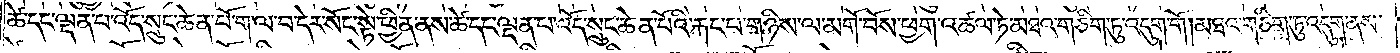ཚེ་དང་ལྡན་པ་འོད་སྲུང་ཆེན་པོ་ག་ལ་བ་དེར་སོང་སྟེ་ཕྱིན་ནས་ཚེ་དང་ལྡན་པ་འོད་སྲུང་ཆེན་པོའི་རྐང་པ་གཉིས་ལ་མགོ་བོ་ཕྱག་འཚལ་ཏེ་མཐའ་གཅིག་ཏུ་འདུག་གོ།མཐའ་གཅིག་ཏུ་འདུག་ནས་
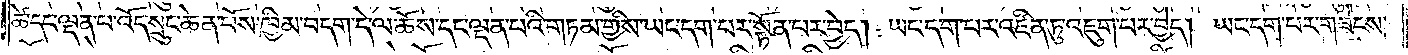ཚེ་དང་ལྡན་པ་འོད་སྲུང་ཆེན་པོས་ཁྱིམ་བདག་དེ་ལ་ཆོས་དང་ལྡན་པའི་གཏམ་གྱིས་ཡང་དག་པར་སྟོན་པར་བྱེད། ཡང་དག་པར་འཛིན་ཏུ་འཇུག་པར་བྱེད། ཡང་དག་པར་གཟེངས་
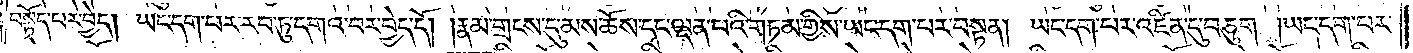བསྟོད་པར་བྱེད། ཡང་དག་པར་རབ་ཏུ་དགའ་བར་བྱེད་དོ། །རྣམ་གྲངས་དུ་མས་ཆོས་དང་ལྡན་པའི་གཏམ་གྱིས་ཡང་དག་པར་བསྟན། ཡང་དག་པར་འཛིན་དུ་བཅུག །ཡང་དག་པར་
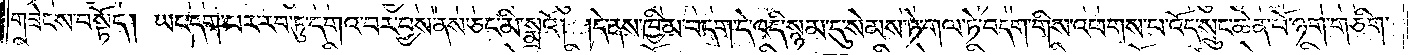གཟེངས་བསྟོད། ཡང་དག་པར་རབ་ཏུ་དགའ་བར་བྱས་ནས་ཅང་མི་སྨྲའོ། །དེ་ནས་ཁྱིམ་བདག་དེ་འདི་སྙམ་དུ་སེམས་ཏེ་གལ་ཏེ་བདག་གིས་འཕགས་པ་འོད་སྲུང་ཆེན་པོ་ཉག་གཅིག་
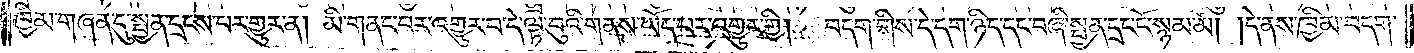ཁྱིམ་གཞན་དུ་སྤྱན་དྲངས་པར་གྱུར་ན། མི་གནང་བར་འགྱུར་བ་དེ་ལྟ་བུའི་གནས་ཡོད་པར་འགྱུར་གྱི། བདག་གིས་དེ་དག་ཉིད་དང་བཞི་སྤྱན་དྲངས་ངོ་སྙམ་མོ། །དེ་ནས་ཁྱིམ་བདག་
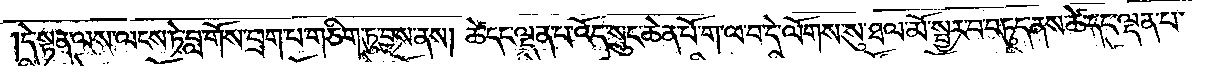དེ་སྟན་ལས་ལངས་ཏེ་བླ་གོས་ཕྲག་པ་གཅིག་ཏུ་བྱས་ནས། ཚེ་དང་ལྡན་པ་འོད་སྲུང་ཆེན་པོ་ག་ལ་བ་དེ་ལོགས་སུ་ཐལ་མོ་སྦྱར་བ་བཏུད་ནས་ཚེ་དང་ལྡན་པ་
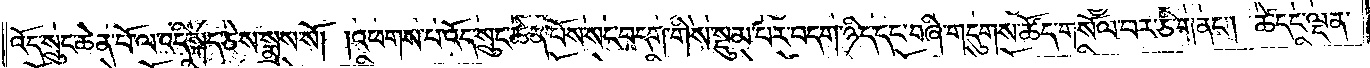འོད་སྲུང་ཆེན་པོ་ལ་འདི་སྐད་ཅེས་སྨྲས་སོ། །འཕགས་པ་འོད་སྲུང་ཆེན་པོས་སང་བདག་གིས་སྡུམ་པར་བདག་ཉིད་དང་བཞི་གདུགས་ཚོད་གསོལ་བར་ཅི་གནང༌། ཚེ་དང་ལྡན་
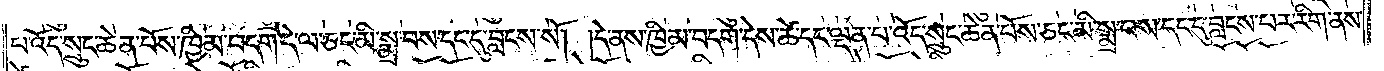པ་འོད་སྲུང་ཆེན་པོས་ཁྱིམ་བདག་དེ་ལ་ཅང་མི་སྨྲ་བས་དང་དུ་བླངས་སོ། །དེ་ནས་ཁྱིམ་བདག་དེས་ཚེ་དང་ལྡན་པ་འོད་སྲུང་ཆེན་པོས་ཅང་མི་སྨྲ་བས་དང་དུ་བླངས་པར་རིག་ནས་
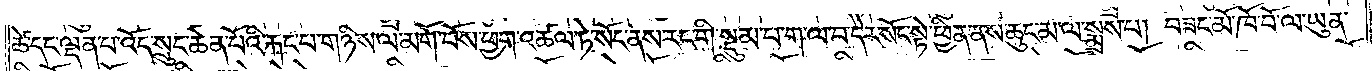ཚེ་དང་ལྡན་པ་འོད་སྲུང་ཆེན་པོའི་རྐང་པ་གཉིས་ལ་མགོ་བོས་ཕྱག་འཚལ་ཏེ་སོང་ནས་རང་གི་སྡུམ་པ་ག་ལ་བ་དེར་སོང་སྟེ་ཕྱིན་ནས་ཆུང་མ་ལ་སྨྲས་པ། བཟང་མོ་ཁོ་བོ་ལ་ཡུན་
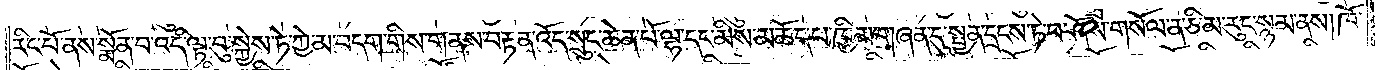རིང་པོ་ནས་སྨོན་པ་འདི་ལྟ་བུ་སྐྱེས་ཏེ་ཀྱེ་མ་བདག་གིས་གནས་བརྟན་འོད་སྲུང་ཆེན་པོ་ལྷ་དང་མིས་མཆོད་པ་ཁྱིམ་གཞན་དུ་སྤྱན་དྲངས་ཏེ་བ་ཤོས་གསོལ་ན་ཅི་མ་རུང་སྙམ་ནས། ཁོ་
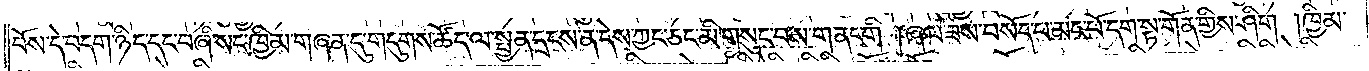བོས་དེ་བདག་ཉིད་དང་བཞི་སང་ཁྱིམ་གཞན་དུ་གདུགས་ཚོད་ལ་སྤྱན་དྲངས་ན་དེས་ཀྱང་ཅང་མི་གསུང་བས་གནང་གི །ཞལ་ཟས་བསོད་པ་མང་པོ་དག་སྟ་གོན་གྱིས་ཤིག །ཁྱིམ་
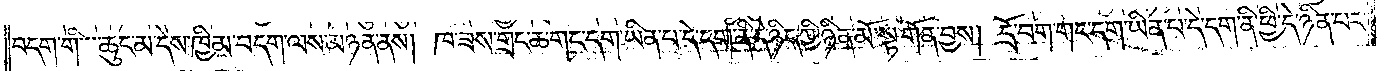བདག་གི་ཆུང་མ་དེས་ཁྱིམ་བདག་ལས་མཉན་ནས། ཁ་ཟས་གྲང་ཆ་གང་དག་ཡིན་པ་དེ་དག་ནི་དེ་ཉིད་ཀྱི་ཉིན་མོ་སྟ་གོན་བྱས། དྲོ་བག་གང་དག་ཡིན་པ་དེ་དག་ནི་ཕྱི་དེ་ཉིན་པར་
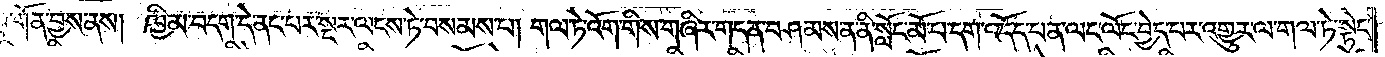སྟ་གོན་བྱས་ནས། ཁྱིམ་བདག་དེ་ནང་པར་སྔར་ལངས་ཏེ་བསམས་པ། གལ་ཏེ་འོག་གིས་གཞིར་གདན་བཤམས་ན་ནི་སློང་མོ་པ་དག་འདོད་པ་ན་ལང་ལོང་བྱེད་པར་འགྱུར་ལ་གལ་ཏེ་སྟེང་
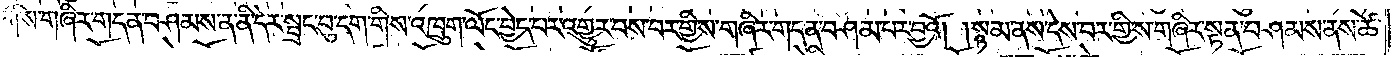གིས་གཞིར་གདན་བཤམས་ན་ནི་དེར་སྦྲང་བུ་དག་གིས་འཁྲུག་ལོང་བྱེད་པར་འགྱུར་བས་བར་གྱི་ས་གཞིར་གདན་བཤམ་པར་བྱའོ། །སྙམ་ནས་དེས་བར་གྱི་ས་གཞིར་སྟན་བཤམས་ནས་ཚེ་
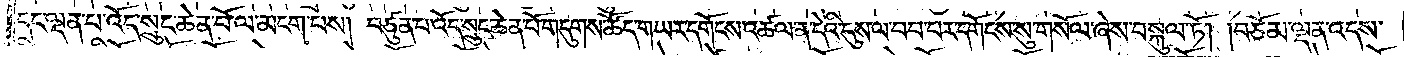དང་ལྡན་པ་འོད་སྲུང་ཆེན་པོ་ལ་མངག་པས། བཙུན་པ་འོད་སྲུང་ཆེན་པོ་གདུགས་ཚོད་གཡར་དགོངས་འཚལ་ན་དེའི་དུས་ལ་བབ་པར་དགོངས་སུ་གསོལ་ཞེས་བསྐུལ་ཏོ། །བཅོམ་ལྡན་འདས་
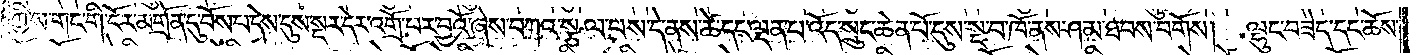ཀྱིས་གང་གི་ངོར་མགྲོན་དུ་བོས་པ་དེས་དུས་སྔར་དེར་འགྲོ་བར་བྱའོ་ཞེས་བཀའ་སྩལ་པས་དེ་ནས་ཚེ་དང་ལྡན་པ་འོད་སྲུང་ཆེན་པོ་དུས་སྔ་བ་ཁོ་ནས་ཤམ་ཐབས་བགོས། ལྷུང་བཟེད་དང་ཆོས་
